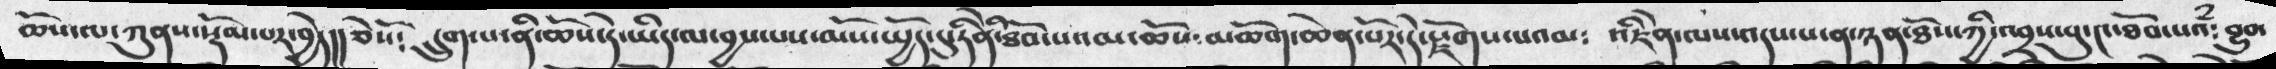ཆོས་ལ་ཀུན་སྡོམ་པར་བྱེད།།  ཅེསོ༴  དྲུག་པ་ནི་ཆོས་དེ་ཡིད་ལ་བྱས་པས་མོས་ཡྱོད་དུ་རིནེི་ཐོབ་པའམ་ཆོས་མཆོག་ཆེན་པོར་དེ་རྗོགས་པའམ༴  འཇིེན་ལས་འདས་པ་ཉན་ཐོས་ཀྱི་འབྲས་བུ་༤་ཐོབ་པའཾ་བྱུབ་
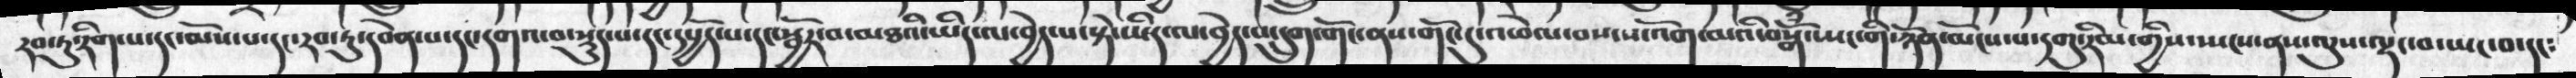རབ་ཏུ་རིག་པ་དང་མོས་པ་དང་རབ་ཏུ་དབེན་པ་དང་དགའ་བ་སྡུད་པ་དང་དཔྱོད་པ་དང་སྦྱོར་བ་མཐའི་ཡིད་ལ་བྱེད་པ་དྲུག་གོང་ནས་གོང་དུ་འཕེལ་བས་ས་འོག་མའི་བསྒོམ་སྤང་གི་ཉོན་མོངས་པ་དགུ་རིམ་གྱིས་སྤངས་ནས་ལུས་ལྡང་བ་ཡང་བ་དང༴
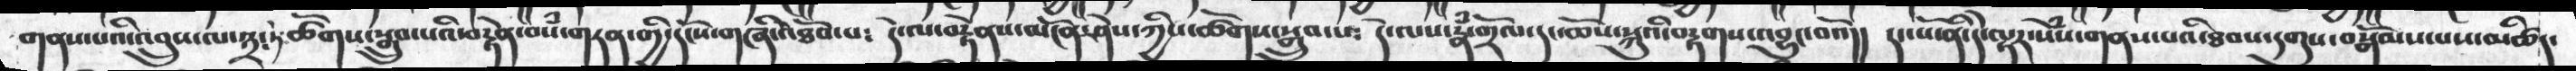གནས་པའི་འབྲུས་ལ་༣༴ཏེཿཚོགས་སྒྲུབ་པའི་བརྟེན་བསཾ་གཏན་གྱི་དངོས་གཞི་འཐོབ་པ༴ དེ་ལ་བརྟེནས་མངོན་ཤེས་ཀྱིས་ཚོགས་སྒྲུབ་པཿ  དེ་ལས་རྣཾ་གྲོལ་དང་ཆོས་སྐུའི་བརྟགས་འབྱུང་བའོ།།   དང་པོ་ནི་དེ་ལྟར་སེཾས་གནས་པའི་ཐབས་དགུས་བསྒོམས་པས་མཚིད་
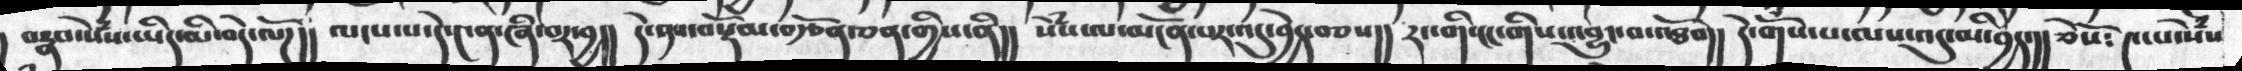། བརྣབ་སེཾས་ཡིད་མི་བདེ་ལོཌ།།   ལངས་པ་དེ་༤ན་ཞི་བར་བྱ།།  དེ་ནས་བསྡོམ་བརྩོན་ཅན་གྱིས་ནི།།   སེཾས་ལ་མངོན་པར་འདུ་བྱེད་བཅས།།   རང་གི་ངང་གིས་འབྱུང་པ་འཐོབ།།   དེ་གསོ་པ་ལས་འདུ་མིབྱིད་།།  ཅེསོ༴ ༤་པ་སེཾས
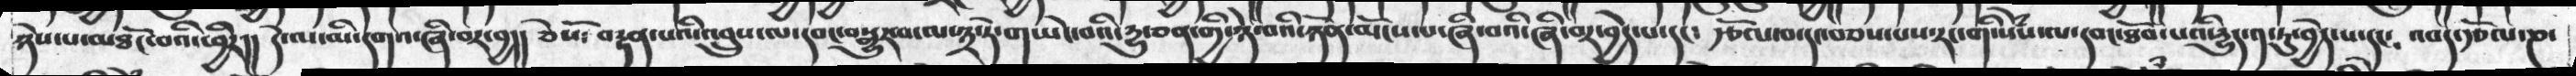ཉེས་པ་མཐོང་བའི་ཕྱིར།།  དེ་ལ་མི་དགའ་ཞི་བར་བྱ།།  ཅེསོ༴ བརྟན་པའི་འབྲུས་ལ་དབང་བསྒྱུར་པ་ལ་༣་ཏེ་གཡེང་བའི་དྱུ་ཅན་གྱི་ཉེ་བའི་ཉོན་མོངས་པ་ཞི་བའི་ཞི་བར་བྱེད་པ་དང༴   རྩོལ་བ་དང་བཅས་པས་རང་གི་སེཾས་ལ་དབང་ཐོབ་པའི་དྱུད་༡་ཏུ་བྱེད་པ་དང༴   འབད་རྩོལ་ཎ་
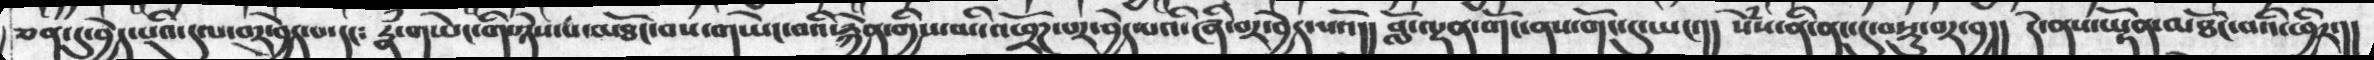ཅན་དུ་བྱེད་པའི་དུལ་བར་བྱེད་པ་དང༴  རྣཾ་གཡེང་གི་ཉེས་པ་མཐོང་བས་གཡེང་བའི་རྐྱེན་གྱིས་མི་འཕྲོཌ་པར་བྱེད་པའི་ཞི་བར་བྱེད་པའོ།།   བློ་ལྡན་གོང་ནས་གོང་དུ་ཡང་།།  སེཾས་ནི་ནང་དུ་བསྡུ་བར་བྱ།།   དེ་ནས་ཡྟོན་མཐོང་བའི་ཕྱིར་།།
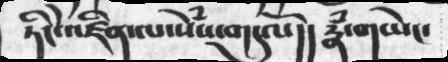ཏིངེ་འཛིན་ལ་སེཾས་གདུལོ།།   རྣཾ་གཡེང་
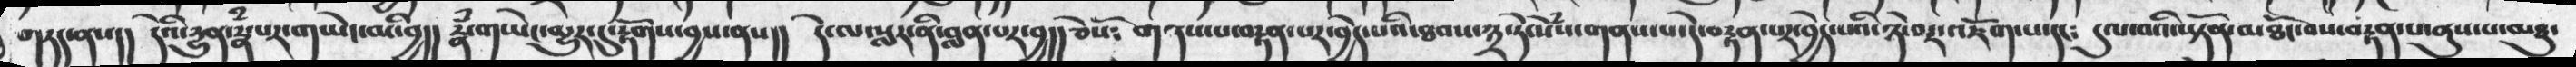གཏད་ནས།།   དེའི་དྱུན་རྣཾ་པར་གཡེང་མི་བྱ།།  རྣཾ་གཡེང་མྱུར་དུ་རྟོགས་བྱས་ནས།།  དེ་ལ་སླར་ནི་བླན་པར་བྱ།། ཅེསོ༴ གནས་པ་བརྟན་པར་བྱེད་པའི་ཐབས་༣་ཏེ་སེཾས་གནས་པ་དེ་བརྟན་པར་བྱེད་པའི་ཉེ་བར་འཇོག་པ་དང༴   དུལ་བའི་ཡྟོན་མཐོང་བས་བརྟན་པ་ནུས་པ་མཐུ་
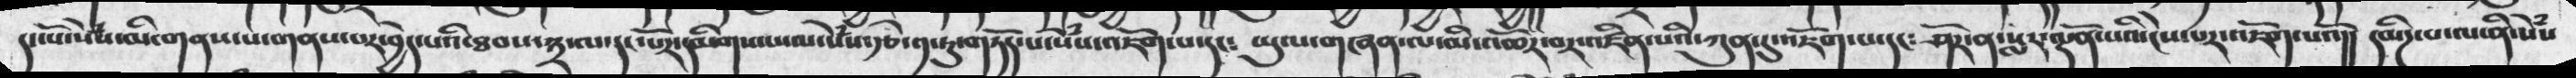དང་པོ་སེཾས་མི་གནས་པ་གནས་པར་བྱེད་པའི་ཐབས་༣་ལ་དང་པོར་དམིགས་ཡམ་སེཾས་རྩེ་༡་ཏུ་གཏོད་པ་སེཾས་འཇོག་པ་དང༴   ཡུལ་གཞན་ལ་མི་འཆོར་བར་འཛིན་པའི་ཀུན་དུ་འཇོག་པ་དང༴ ཤོར་ན་སླར་ལྡོན་པའི་ངེས་པར་འཇོག་པའོ།།   དམིཌ་པ་ནི་སེཾས
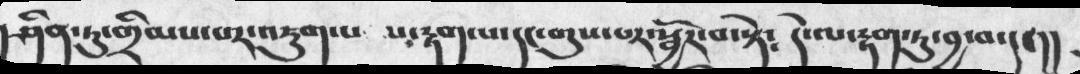།ཤིན་ཏུ་གྲིམས་པར་འཇུག་པ པ་རྟག་པ་དང་གུས་པར་སྦྱོར་བ་སྟེ༴   དེ་ལ་རྟག་ཏུ་བྱ་བ་དང།།
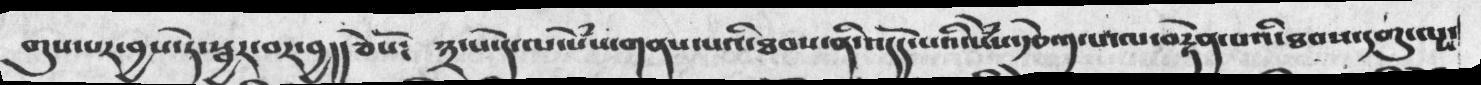གུས་པར་བྱས་ཏེ་སྦྱར་བར་བྱ།། ཅེསོ༴   ༣་པ་དེ་ལ་སེཾས་གནས་པའི་ཐབས་ནི་འདོད་པའི་སེཾས་རྩེ་༡་པ་ལ་བརྟེན་པའི་ཐབས་དགུ་ལས་
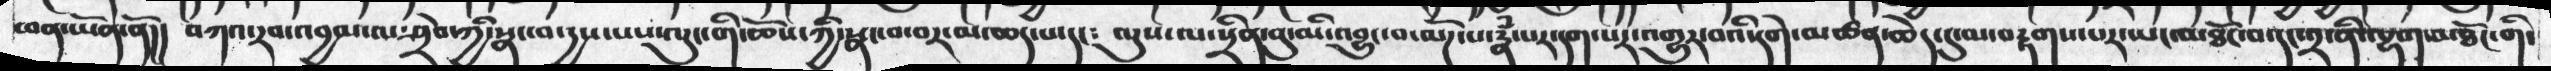ཕན་ཡོན་ནོ།།  བཀའ་རབ་འབྱམ་ལ་ཤྲེབ་ཀྱི་སྣང་བ་དྱས་པས་ལུང་གི་ཆོས་ཀྱི་སྣང་བ་བར་མ་ཆད་པ་དང༴   ལུས་ལ་སྲིན་བུ་མི་འབྱུང་བ་ལཌོ་པ་རྣཾ་པར་དག་པར་འགྱུར་བའི་དགེ་མཚན་ཆེད་དུ་མ་བརྟག་པར་ཡང་མཐོང་བ་དང་༢་ནི་ལྷག་མཐོང་གི་
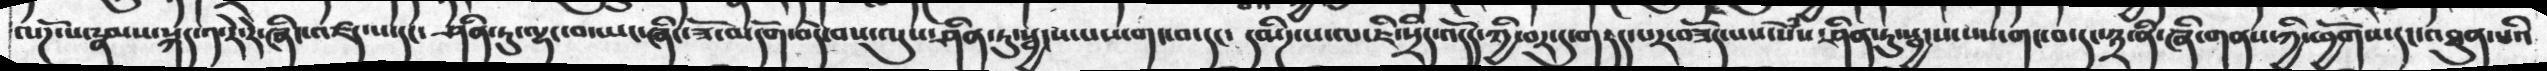ལཌོ་པ་རྣམས་སྐད་༡་རེ་རེ་ཞིང་འཛད་པ་དང་།   ཤིན་ཏུ་ལྟ་བ་ཡང་ཞིང་ཟོ་མདོག་བདེ་བས་ལུས་ཤིན་ཏུ་སྦྱངས་པས་གང་བ་དང་  དམིཌ་པ་ལ་ཇི་སྲིད་འདོད་ཀྱི་བར་དུ་གཏད་པར་བཟོད་པས་སེཾས་ཤིན་ཏུ་སྦྱངས་པས་གང་བ་དང་༣་ནི་ཞི་གནས་ཀྱི་ཕྱོགས་དང་འཐུན་པའི
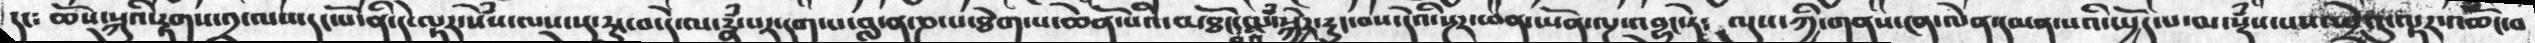དང༴  ཆོས་སྐུའི་རྟགས་༢་ལས་དང་པོ་ནི་དེ་ལྟར་སེཾས་ལས་སུ་རུང་བ་དེ་ལ་རྣཾ་པར་དག་པ་བླ་ན་ཎ་པ་ཐེག་པ་ཆེན་པོའི་མཐོང་བའི་ལཾ་སྐྱེད་རུང་བས་དེའི་སྔར་ཕན་ཡོན་ལྔ་འབྱུང་ཏེ༴  ལུས་ཀྱི་གནས་ངན་ལེན་དམན་པའི་སྤྱོད་པ་མ་སྡཾས་པས་ཕྲེ་དུ་ལྟར་འཆོང་བ
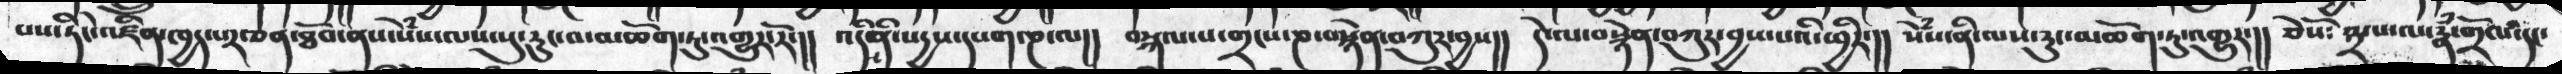པས་ཏིངེ་འཛིན་ཁྱད་པར་ཅན་ཐོབ་ནས་སེཾས་ལས་སུ་རུང་བ་མཆོག་ཏུ་འགྱུར་རོ།།   འདི་ནི་སདྱས་དཔག་ཎ་ལ།།  བསྐལ་པ་གྲངས་ཎ་བསྙེན་བཀུར་བྱས།།   དེ་ལ་བསྙེན་བཀུར་བྱས་པའི་ཕྱིར་།།   སེཾས་ནི་ལས་ཉུང་མཆོག་ཏུ་འགྱུར་།།  ཅེསོ༴ ༣་པ་ལ་རྣཾ་གྲོལ་དང་
